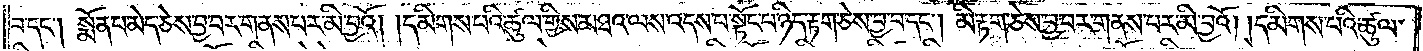བ་དང༌། སྨོན་པ་མེད་ཅེས་བྱ་བར་གནས་པར་མི་བྱའོ། །དམིགས་པའི་ཚུལ་གྱིས་མཐའ་ལས་འདས་པ་སྟོང་པ་ཉིད་རྟག་ཅེས་བྱ་བ་དང༌། མི་རྟག་ཅེས་བྱ་བར་གནས་པར་མི་བྱའོ། །དམིགས་པའི་ཚུལ་
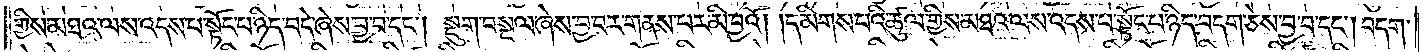གྱིས་མཐའ་ལས་འདས་པ་སྟོང་པ་ཉིད་བདེ་ཞེས་བྱ་བ་དང༌། སྡུག་བསྔལ་ཞེས་བྱ་བར་གནས་པར་མི་བྱའོ། །དམིགས་པའི་ཚུལ་གྱིས་མཐའ་ལས་འདས་པ་སྟོང་པ་ཉིད་བདག་ཅེས་བྱ་བ་དང༌། བདག་
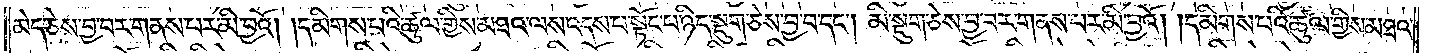མེད་ཅེས་བྱ་བར་གནས་པར་མི་བྱའོ། །དམིགས་པའི་ཚུལ་གྱིས་མཐའ་ལས་འདས་པ་སྟོང་པ་ཉིད་སྡུག་ཅེས་བྱ་བ་དང༌། མི་སྡུག་ཅེས་བྱ་བར་གནས་པར་མི་བྱའོ། །དམིགས་པའི་ཚུལ་གྱིས་མཐའ་
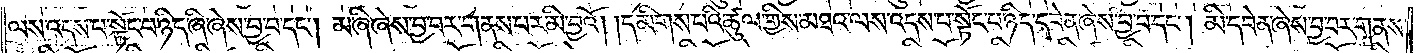ལས་འདས་པ་སྟོང་པ་ཉིད་ཞི་ཞེས་བྱ་བ་དང༌། མ་ཞི་ཞེས་བྱ་བར་གནས་པར་མི་བྱའོ། །དམིགས་པའི་ཚུལ་གྱིས་མཐའ་ལས་འདས་པ་སྟོང་པ་ཉིད་དབེན་ཞེས་བྱ་བ་དང༌། མི་དབེན་ཞེས་བྱ་བར་གནས་
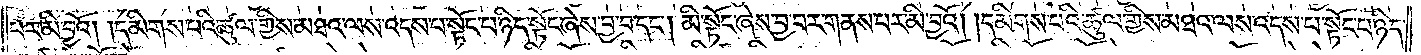པར་མི་བྱའོ། །དམིགས་པའི་ཚུལ་གྱིས་མཐའ་ལས་འདས་པ་སྟོང་པ་ཉིད་སྟོང་ཞེས་བྱ་བ་དང༌། མི་སྟོང་ཞེས་བྱ་བར་གནས་པར་མི་བྱའོ། །དམིགས་པའི་ཚུལ་གྱིས་མཐའ་ལས་འདས་པ་སྟོང་པ་ཉིད་
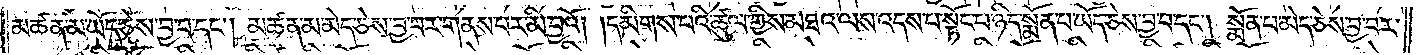མཚན་མ་ཡོད་ཅེས་བྱ་བ་དང༌། མཚན་མ་མེད་ཅེས་བྱ་བར་གནས་པར་མི་བྱའོ། །དམིགས་པའི་ཚུལ་གྱིས་མཐའ་ལས་འདས་པ་སྟོང་པ་ཉིད་སྨོན་པ་ཡོད་ཅེས་བྱ་བ་དང༌། སྨོན་པ་མེད་ཅེས་བྱ་བར་
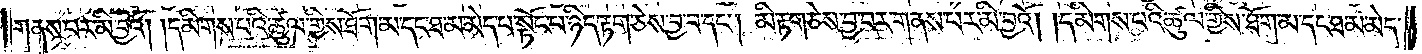གནས་པར་མི་བྱའོ། །དམིགས་པའི་ཚུལ་གྱིས་ཐོག་མ་དང་ཐ་མ་མེད་པ་སྟོང་པ་ཉིད་རྟག་ཅེས་བྱ་བ་དང༌། མི་རྟག་ཅེས་བྱ་བར་གནས་པར་མི་བྱའོ། །དམིགས་པའི་ཚུལ་གྱིས་ཐོག་མ་དང་ཐ་མ་མེད་
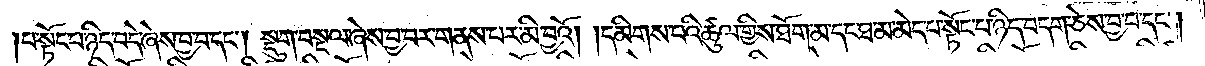པ་སྟོང་པ་ཉིད་བདེ་ཞེས་བྱ་བ་དང༌། སྡུག་བསྔལ་ཞེས་བྱ་བར་གནས་པར་མི་བྱའོ། །དམིགས་པའི་ཚུལ་གྱིས་ཐོག་མ་དང་ཐ་མ་མེད་པ་སྟོང་པ་ཉིད་བདག་ཅེས་བྱ་བ་དང༌།
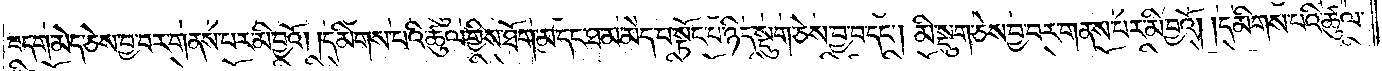བདག་མེད་ཅེས་བྱ་བར་གནས་པར་མི་བྱའོ། །དམིགས་པའི་ཚུལ་གྱིས་ཐོག་མ་དང་ཐ་མ་མེད་པ་སྟོང་པ་ཉིད་སྡུག་ཅེས་བྱ་བ་དང༌། མི་སྡུག་ཅེས་བྱ་བར་གནས་པར་མི་བྱའོ། །དམིགས་པའི་ཚུལ་
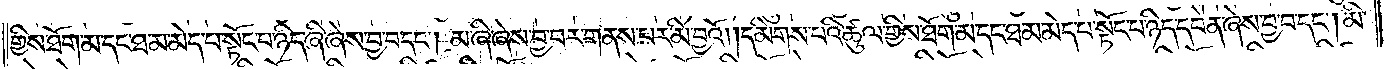གྱིས་ཐོག་མ་དང་ཐ་མ་མེད་པ་སྟོང་པ་ཉིད་ཞི་ཞེས་བྱ་བ་དང༌། མ་ཞི་ཞེས་བྱ་བར་གནས་པར་མི་བྱའོ། །དམིགས་པའི་ཚུལ་གྱིས་ཐོག་མ་དང་ཐ་མ་མེད་པ་སྟོང་པ་ཉིད་དབེན་ཞེས་བྱ་བ་དང༌། མི་
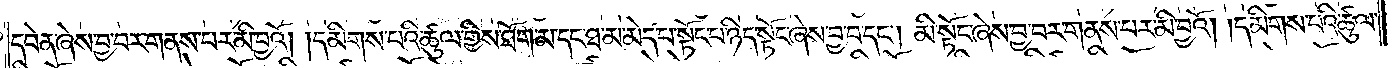དབེན་ཞེས་བྱ་བར་གནས་པར་མི་བྱའོ། །དམིགས་པའི་ཚུལ་གྱིས་ཐོག་མ་དང་ཐ་མ་མེད་པ་སྟོང་པ་ཉིད་སྟོང་ཞེས་བྱ་བ་དང༌། མི་སྟོང་ཞེས་བྱ་བར་གནས་པར་མི་བྱའོ། །དམིགས་པའི་ཚུལ་
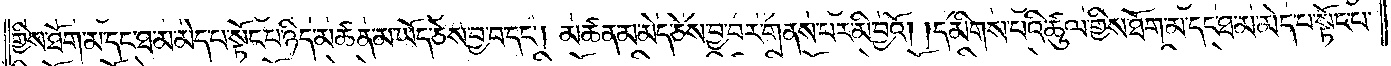གྱིས་ཐོག་མ་དང་ཐ་མ་མེད་པ་སྟོང་པ་ཉིད་མཚན་མ་ཡོད་ཅེས་བྱ་བ་དང༌། མཚན་མ་མེད་ཅེས་བྱ་བར་གནས་པར་མི་བྱའོ། །དམིགས་པའི་ཚུལ་གྱིས་ཐོག་མ་དང་ཐ་མ་མེད་པ་སྟོང་པ་
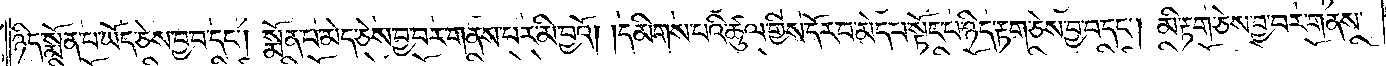ཉིད་སྨོན་པ་ཡོད་ཅེས་བྱ་བ་དང༌། སྨོན་པ་མེད་ཅེས་བྱ་བར་གནས་པར་མི་བྱའོ། །དམིགས་པའི་ཚུལ་གྱིས་དོར་བ་མེད་པ་སྟོང་པ་ཉིད་རྟག་ཅེས་བྱ་བ་དང༌། མི་རྟག་ཅེས་བྱ་བར་གནས་
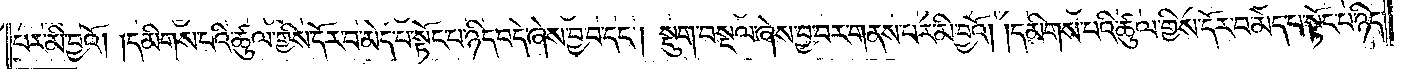པར་མི་བྱའོ། །དམིགས་པའི་ཚུལ་གྱིས་དོར་བ་མེད་པ་སྟོང་པ་ཉིད་བདེ་ཞེས་བྱ་བ་དང༌། སྡུག་བསྔལ་ཞེས་བྱ་བར་གནས་པར་མི་བྱའོ། །དམིགས་པའི་ཚུལ་གྱིས་དོར་བ་མེད་པ་སྟོང་པ་ཉིད་
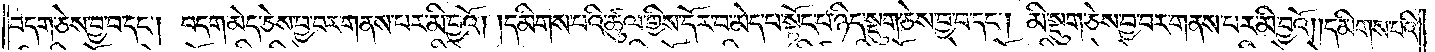བདག་ཅེས་བྱ་བ་དང༌། བདག་མེད་ཅེས་བྱ་བར་གནས་པར་མི་བྱའོ། །དམིགས་པའི་ཚུལ་གྱིས་དོར་བ་མེད་པ་སྟོང་པ་ཉིད་སྡུག་ཅེས་བྱ་བ་དང༌། མི་སྡུག་ཅེས་བྱ་བར་གནས་པར་མི་བྱའོ། །དམིགས་པའི་
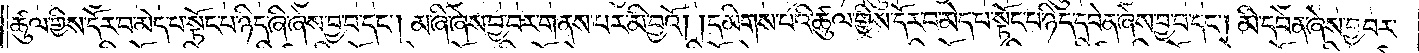ཚུལ་གྱིས་དོར་བ་མེད་པ་སྟོང་པ་ཉིད་ཞི་ཞེས་བྱ་བ་དང༌། མ་ཞི་ཞེས་བྱ་བར་གནས་པར་མི་བྱའོ། །དམིགས་པའི་ཚུལ་གྱིས་དོར་བ་མེད་པ་སྟོང་པ་ཉིད་དབེན་ཞེས་བྱ་བ་དང༌། མི་དབེན་ཞེས་བྱ་བར་
